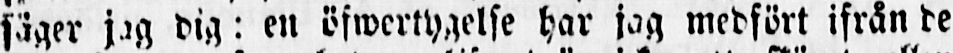säger jag dig: en öfwertygelse har jag medfört ifrån de
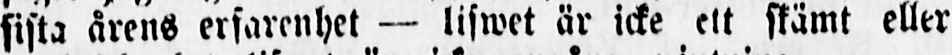sista årens erfarenhet — lifwet är icke ett skämt eller
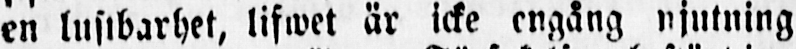en lustbarhet, lifwet är icke engång njutning
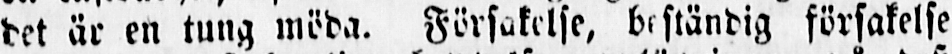det är en tung möda. Försakelse, beständig försakelse
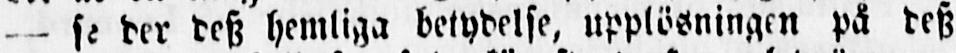- se der desz hemliga betydelse, upplösningen på desz
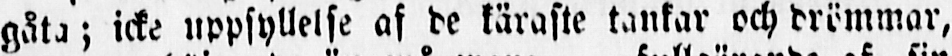gåta; icke uppfyllelse af de käraste tankar och drömmar,
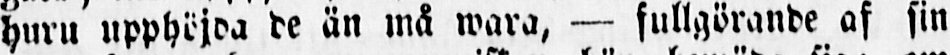huru upphöjda de än må wara, — fullgörande af sin
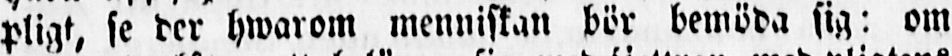pligt, se der hwarom menniskan bör bemöda sig: om
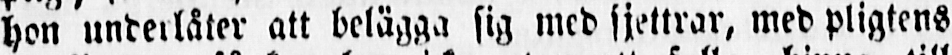hon underlåter att belägga sig med sjettrar, med pligtens
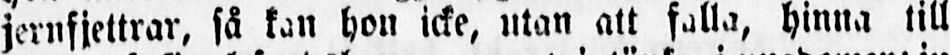jernfjettrar, så kan hon icke, utan att falla, hinna till
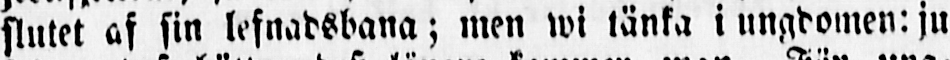slutet af sin lefnadsbana; men wi tänka i ungdomen: ju
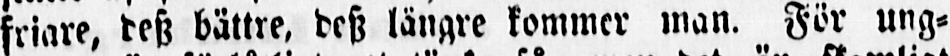friare, desz bättre, desz längre kommer man. För ung-
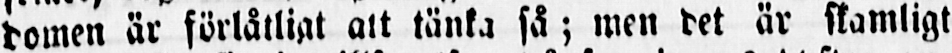domen är förlåtligt att tänka så; men det är skamligt
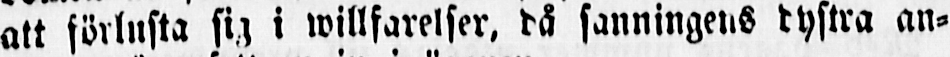att förlusta sig i willfarelser, då sanningens dystra an-
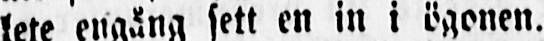lete engång sett en in i ögonen.
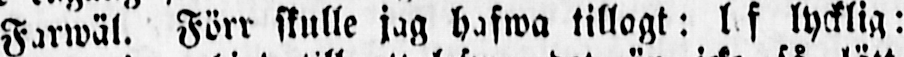Farwäl. Förr skulle jag hafwa tillagt: l f lycklig:
